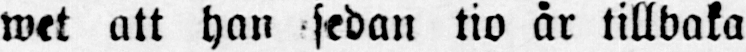wet att han sedan tio år tillbaka
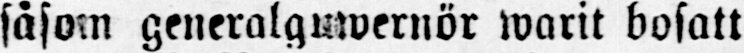såsom generalguwernör warit bosatt
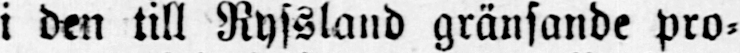i den till Ryssland gränsande pro-
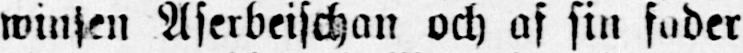winsen Aserbeischan och af sin fader
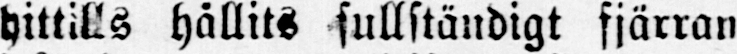hittills hållits fullständigt fjärran
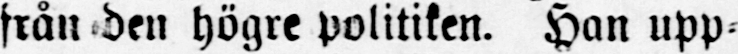från den högre politiken. Han upp-
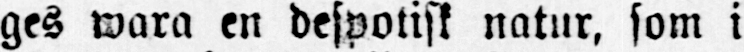ges wara en despotisk natur, som i
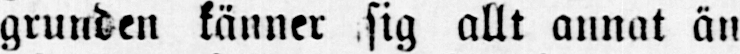grunden känner sig allt annat än
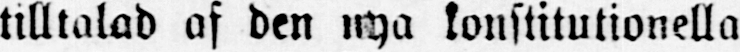tilltalad af den nya konstitutionella
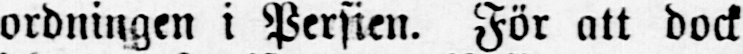ordningen i Persien. För att dock
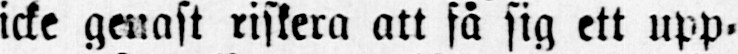icke genast riskera att få sig ett upp-
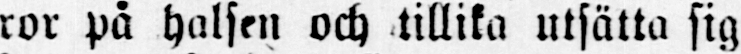ror på halsen och tillika utsätta sig
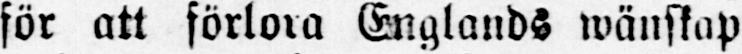för att förlora Englands wänskap
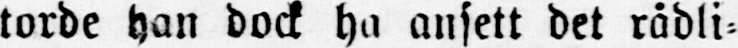torde han dock ha ansett det rådli-
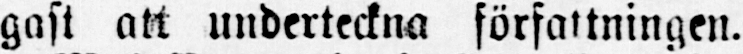gast att underteckna författningen.
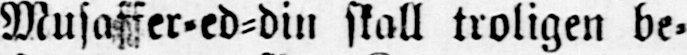Musaffer-ed-din skall troligen be-
